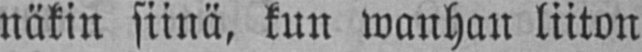näkin siinä, kun wanhan liiton
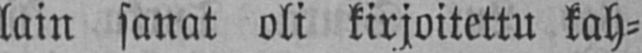lain sanat oli kirjoitettu kah-
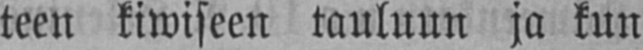teen kiwiseen tauluun ja kun
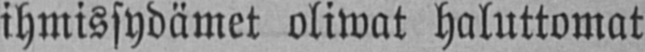ihmissydämet oliwat haluttomat
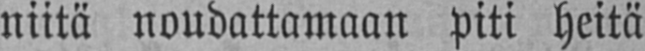niitä noudattamaan piti heitä
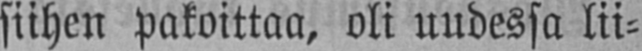siihen pakoittaa, oli uudessa lii-
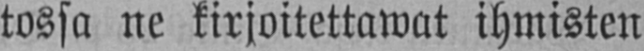tossa ne kirjoitettawat ihmisten
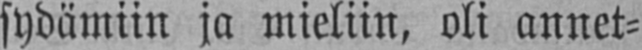sydämiin ja mieliin, oli annet-
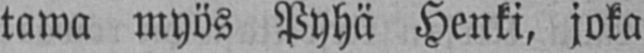tawa myös Pyhä Henki, joka
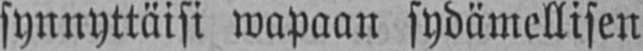synnyttäisi wapaan sydämellisen
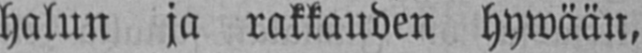halun ja rakkauden hywään,
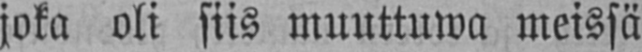joka oli siis muuttuwa meissä
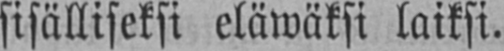sisälliseksi eläwäksi laiksi.
